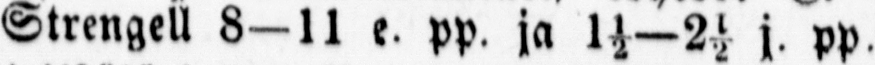Strengell 8-11 e. pp. ja 1½—2½ j. pp.
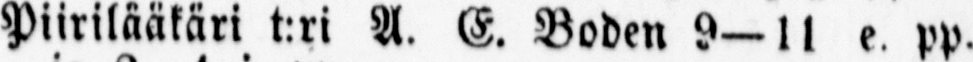Piirilääkäri t:ri A. E. Boden 9—11 e. pp.
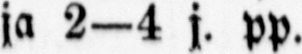ja 2-4 j. pp.
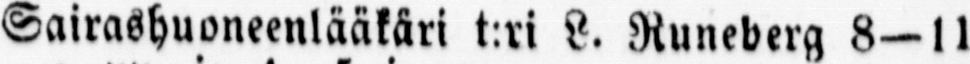Sairashuoneenlääkäri t:ri L. Runeberg 8—11
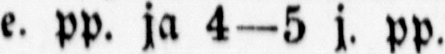e. pp. ja 4-5 j. pp.
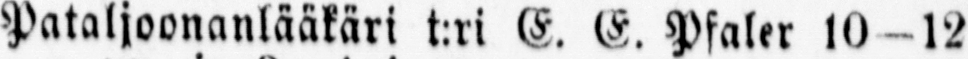Pataljoonanlääkäri t:ri E. E. Pfaler 10-12
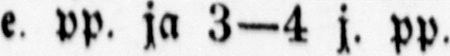e. pp. ja 3-4 j. pp.
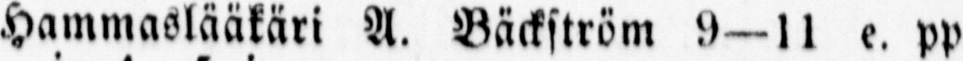Hammaslääkäri A. Bäckström 9—11 e. pp.
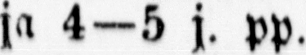ja 4-5 j. pp.
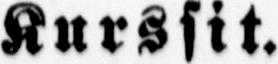Kurssit.
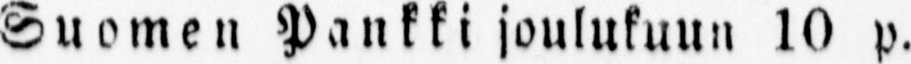Suomen Pankki joulukuun 10 p.
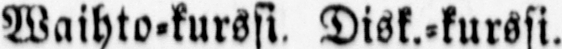Waihto-kurssi. Disk.kurssi.
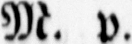M. p.
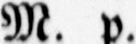M. p.
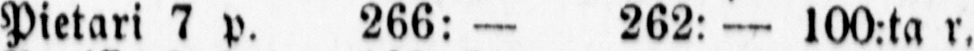Pietari 7 p. 266: — 262: — l00:ta r.
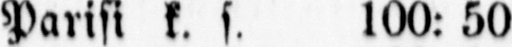Parisi f. s. 100: 50
